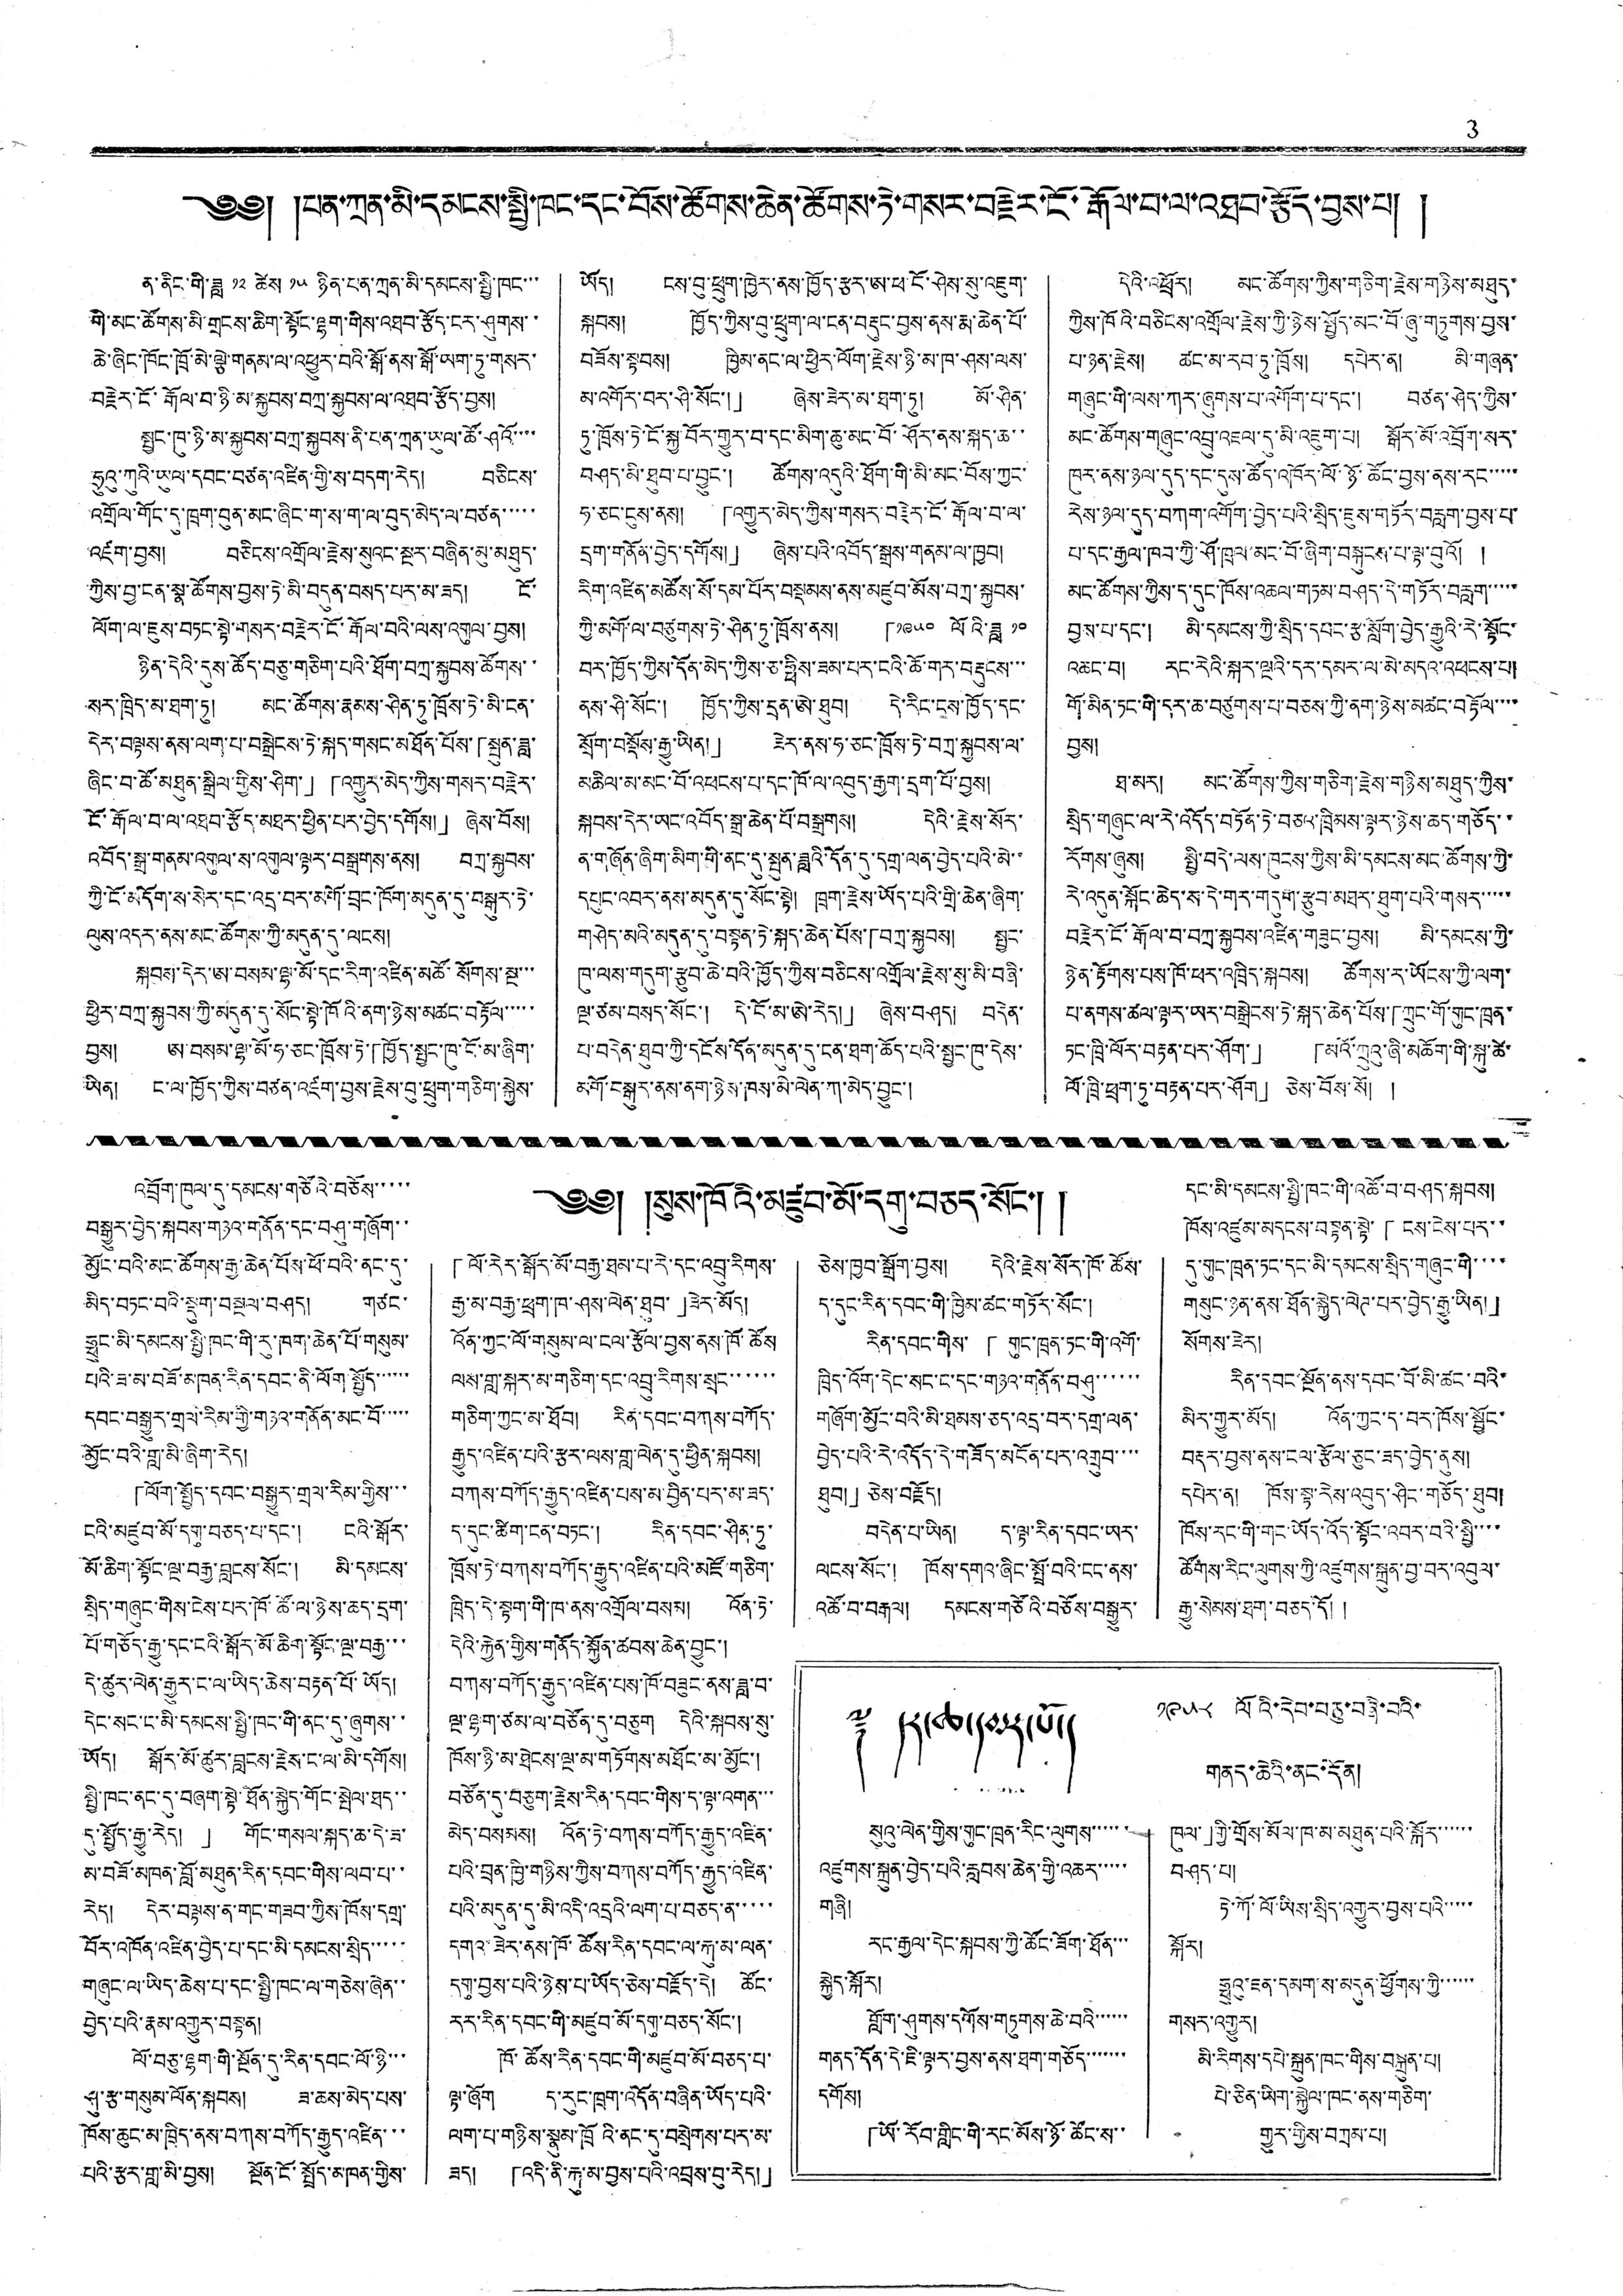3
༄༅། །པན་ཀྲན་མི་དམངས་སྤྱི་ཁང་དང་བོས་ཚོགས་ཆེན་ཚོགས་ཏེ་གསར་བརྗེར་ངོ་རྒོལ་བ་ལ་འཐབ་རྩོད་བྱས་པ། །
ན་ནིང་གི་ཟླ ༡༢ ཚེས ༡༥ ཉིན་པན་ཀྲན་མི་དམངས་སྤྱི་ཁང་་་
གི་མང་ཚོགས་མི་གྲངས་ཆིག་སྟོང་ལྷག་གིས་འཐབ་རྩོད་ངར་ཤུགས་་
ཆེ་ཞིང་ཁོང་ཁྲོ་མེ་ལྕེ་གནམ་ལ་འཕྱུར་བའི་སྒོ་ནས་སྒོ་ཡག་ཏུ་གསར་
བརྗེར་ངོ་རྒོལ་བ་ཉི་མ་སྐྱབས་བཀྲ་སྐྱབས་ལ་འཐབ་རྩོད་བྱས།
སྤྱང་ཁུ་ཉི་མ་སྐྱབས་བཀྲ་སྐྱབས་ནི་པན་ཀྲན་ཡུལ་ཚོ་ཤའོ་་་་
ཧྲུའུ་ཀུའི་ཡུལ་དབང་བཙན་འཛིན་གྱིས་ས་བདག་རེད། བཅིངས་
འགྲོལ་གོང་དུ་ཁྲག་བུན་མང་ཞིང་ག་ས་ག་ལ་བུད་མེད་ལ་བཙན་་་་་
འཛག་བྱས། བཅིངས་འགྲོལ་རྗེས་སུའང་སྔར་བཞིན་མུ་མཐུད་
ཀྱིས་བྱ་ངན་སྣ་ཚོགས་བྱས་ཏེ་མི་བདུན་བསད་པར་མ་ཟད། ངོ་
ལོག་ལ་ཇུས་བཏང་སྟེ་གསར་བརྗེར་ངོ་རྒོལ་བའི་ལས་འགུལ་བྱས།
ཉིན་དེའི་དུས་ཚོད་བཅུ་གཅིག་པའི་ཐོག་བཀྲ་སྐྱབས་ཚོགས་་
སར་ཁྲིད་མ་ཐག་ཏུ། མང་ཚོགས་རྣམས་ཤིན་ཏུ་ཁྲོས་ཏེ་མི་ངན་
དེར་བལྟས་ནས་ལག་པ་བསྒྲེངས་ཏེ་སྐད་གསང་མཐོན་པོས་「སྤུན་ཟླ་
ཞིང་བ་ཚོ་མཐུན་སྒྲིལ་གྱིས་ཤིག་」「འགྱུར་མེད་ཀྱིས་གསར་བརྗེར་
ངོ་རྒོལ་བ་ལ་འཐབ་རྩོད་མཐར་ཕྱིན་པར་བྱེད་དགོས།」ཞེས་བོས།
འབོད་སྒྲ་གནམ་འགུལ་ས་འགུལ་ལྟར་བསྒྲགས་ནས། བཀྲ་སྐྱབས་
ཀྱི་ངོ་མདོག་ས་སེར་དང་འདྲ་བར་མགོ་བྲང་ཁོག་མདུན་དུ་བསྒུར་ཏེ་
ལུས་འདར་ནས་མང་ཚོགས་ཀྱི་མདུན་དུ་ལངས།
སྐབས་དེར་ཨ་བསམ་ལྷ་མོ་དང་རིག་འཛིན་མཚོ་སོགས་སྔ་་་
ཕྱིར་བཀྲ་སྐྱབས་ཀྱི་མདུན་དུ་སོང་སྟེ་ཁོའི་ནག་ཉེས་མཚང་བརྟོལ་་་་་
བྱས། ཨ་བསམ་ལྷ་མོ་ཧ་ཅང་ཁྲོས་ཏེ་「ཁྱོད་སྦྱང་ཁུ་ངོ་མ་ཞིག་
ཡིན། ང་ལ་ཁྱོད་ཀྱིས་བཙན་འཛག་བྱས་རྗེས་བུ་ཕྲུག་གཅིག་སྐྱེས་
ཡོད། ངས་བུ་ཕྲུག་ཁྱེར་ནས་ཁྱོད་རྩར་ཨ་ཕ་ངོ་ཤེས་སུ་འཇུག་
སྐབས། ཁྱོད་ཀྱིས་བུ་ཕྲུག་ལ་ངན་བརྡུང་བྱས་ནས་རྨ་ཆེན་པོ་
བཟོས་སྟབས། ཁྱིམ་ནང་ལ་ཕྱིར་ལོག་རྗེས་ཉི་མ་ཁ་ཤས་ལས་
མ་འགོར་བར་ཤི་སོང་།」 ཞེས་ཟེར་མ་ཐག་ཏུ། མོ་ཤིན་
ཏུ་ཁྲོས་ཏེ་ངོ་སྐྱ་བོད་གྱུར་བ་དང་མིག་ཆུ་མང་བོ་ཤོར་ནས་སྐད་ཆ་་
བཤད་མི་ཐུབ་པ་བྱུང་། ཚོགས་འདུའི་ཐོག་གི་མི་མང་བོས་ཀྱང་
ཧ་ཅང་ངུས་ནས། 「འགྱུར་མེད་ཀྱིས་གསར་བརྗེར་ངོ་རྒོལ་བ་ལ་
དྲུག་གནོན་བྱེད་དགོས།」 ཞེས་པའི་འབོད་སྒྲས་གནམ་ལ་ཁྱབ།
རིག་འཛིན་མཚོས་སོ་དམ་པོར་བསྡམས་ནས་མཛུབ་མོས་བཀྲ་སྐྱབས་
ཀྱི་མགོ་ལ་བཙུགས་ཏེ་ཤིན་ཏུ་ཁྲོས་ནས། 「༡༩༥༠ ལོའི་ཟླ ༡༠
བར་ཁྱོད་ཀྱིས་དོན་མེད་ཀྱིས་ཅ་ཧྥིས་ཟམ་པར་ངའི་ཆོ་གར་བརྡུངས་་་
ནས་ཤི་སོང་། ཁྱོད་ཀྱིས་དྲན་ཨེ་ཐུབ། དེ་རིང་ངས་ཁྱོད་དང་
སྲོག་བསྡོས་རྒྱུ་ཡིན།」 ཟེར་ནས་ཧ་ཅང་ཁྲོས་ཏེ་བཀྲ་སྐྱབས་ལ་
མཆིལ་མ་མང་བོ་འཕངས་པ་དང་ཁོ་ལ་འབུད་རྒྱག་དྲག་པོ་བྱས།
སྐབས་དེར་ཡང་འབོད་སྒྲ་ཆེན་པོ་བསྒྲགས། དེའི་རྗེས་སོར་
ན་གཞོན་ཞིག་མིག་གི་ནང་དུ་སྤུན་ཟླའི་དོན་དུ་དགྲ་ལན་བྱེད་པའི་མི་་
དཔུང་འབར་ནས་མདུན་དུ་སོང་སྟེ། ཁྲག་རྗེས་ཡོད་པའི་གྲི་ཆེན་ཞིག་
གཤེད་མའི་མདུན་དུ་བསྟན་ཏེ་སྐད་ཆེན་པོས་「བཀྲ་སྐྱབས། སྤྱང་
ཁུ་ལས་གདུག་རྩུབ་ཆེ་བའི་ཁྱོད་ཀྱིས་བཅིངས་འགྲོལ་རྗེས་སུ་མི་བཞི་
ལྔ་ཙམ་བསད་སོང་། དེ་ངོ་མ་ཨེ་རེད།」 ཞེས་བཤད། བདེན་
པ་བདེན་ཐུབ་ཀྱི་དངོས་དོན་མདུན་དུ་ངན་ཐག་ཆོད་པའི་སྤྱང་ཁུ་དེས་
མགོ་བསྒུར་ནས་ནག་ཉེས་ཁས་མི་ལེན་ཀ་མེད་བྱུང་།
དེའི་འཕྲོར། མང་ཚོགས་ཀྱིས་གཅིག་རྗེས་གཉིས་མཐུད་
ཀྱིས་ཁོའི་བཅིངས་འགྲོལ་རྗེས་ཀྱི་ཉེས་སྤྱོད་མང་བོ་ཞུ་གཏུགས་བྱས་
པ་ཉན་རྗེས། ཚང་མ་རབ་ཏུ་ཁྲོས། དཔེར་ན། མི་གཞན་
གཞུང་གི་ལས་ཀར་ཞུགས་པ་འགོག་པ་དང་། བཙན་ཤེད་ཀྱིས་
མང་ཚོགས་གཞུང་འབྲུ་འཇལ་དུ་མི་འཇུག་པ། སྒོར་མོ་འབྲོག་སར་
ཁུར་ནས་ཉལ་དུད་དང་དུས་ཚོད་འཁོར་ལོ་ཉོ་ཚོང་བྱས་ནས་རང་་་་་
རེས་ཉལ་དུད་བཀག་འགོག་བྱེད་པའི་སྲིད་ཇུས་གཏོར་བརླག་བྱས་པ་
པ་དང་རྒྱལ་ཁབ་ཀྱི་ཤོ་ཁྲལ་མང་བོ་ཞིག་བསྐུངས་པ་ལྟ་བུའོ། །
མང་ཚོགས་ཀྱིས་ད་དུང་ཁོས་འཆལ་གཏམ་བཤད་དེ་གཏོར་བརླག་་་་་
བྱས་པ་དང་། མི་དམངས་ཀྱི་སྲིད་དབང་རྩ་སློག་བྱེད་རྒྱུའི་རེ་སྟོང་
འཆང་བ། རང་རེའི་སྐར་ལྔའི་དར་དམར་ལ་མེ་མདའ་འཕངས་པ།
གོ་མིན་ཏང་གི་དར་ཆ་བཙུགས་པ་བཅས་ཀྱི་ནག་ཉེས་མཚང་བརྟོལ་་་་
བྱས།
ཐ་མར། མང་ཚོགས་ཀྱིས་གཅིག་རྗེས་གཉིས་མཐུད་ཀྱིས་
སྲིད་གཞུང་ལ་རེ་འདོད་བཏོན་ཏེ་བཅའ་ཁྲིམས་ལྟར་ཉེས་ཆད་གཅོད་་
རོགས་ཞུས། སྤྱི་བདེ་ལས་ཁུངས་ཀྱིས་མི་དམངས་མང་ཚོགས་ཀྱི་
རེ་འདུན་སྐོང་ཆེད་ས་དེ་གར་གདུག་རྩུབ་མཐར་ཐུག་པའི་གསར་་་་་
བརྗེར་ངོ་རྒོལ་བ་བཀྲ་སྐྱབས་འཛིན་གཟུང་བས། མི་དམངས་ཀྱི་
ཉེན་རྟོགས་པས་ཁོ་ཕར་འཁྲིད་སྐབས། ཚོགས་ར་ཡོངས་ཀྱི་ལག་
པ་ནགས་ཚལ་ལྟར་ཡར་བསྒྲེངས་ཏེ་སྐད་ཆེན་པོས་「ཀྲུང་གོ་གུང་ཁྲན་
ཏང་ཁྲི་ལོར་བརྟན་པར་ཤོག་」 「མའོ་ཀྲུའུ་ཞི་མཆོག་གི་སྐུ་ཚེ་
ལོ་ཁྲི་ཕྲག་ཏུ་བརྟན་པར་ཤོག」 ཅེས་བོས་སོ། །
༄༅། །སུས་ཁོའི་མཛུབ་མོ་དགུ་བཅད་སོང་། །
འབྲོག་ཁུལ་དུ་དམངས་གཙོའི་བཅོས་་་་་
བསྒྱུར་བྱེད་སྐབས་གཉའ་གནོན་དང་བཤུ་གཞོག་་
མྱོང་བའི་མང་ཚོགས་རྒྱ་ཆེན་པོས་ཕོ་བའི་ནང་དུ་
མིད་བཏང་བའི་སྡུག་བསྔལ་བཤད། གཙང་
ཧྥུང་མི་དམངས་སྤྱི་ཁང་གི་རུ་ཁག་ཆེན་པོ་གསུམ་
པའི་ཟ་མ་བཟོ་མཁན་རིན་དབང་ནི་ལོག་སྤྱོད་་་་་་
དབང་བསྒྱུར་གྲལ་རིམ་གྱི་གཉའ་གནོན་མང་བོ་་་་་
མྱོང་བའི་གླ་མི་ཞིག་རེད།
「ལོག་སྤྱོད་དབང་བསྒྱུར་གྲལ་རིམ་གྱིས་་་
ངའི་མཛུབ་མོ་དགུ་བཅད་པ་དང་། ངའི་སྒོར་
མོ་ཆིག་སྟོང་ལྔ་བརྒྱ་བླངས་སོང་། མི་དམངས་
སྲིད་གཞུང་གིས་ངེས་པར་ཁོ་ཚོ་ལ་ཉེས་ཆད་དྲག་
པོ་གཅོད་རྒྱུ་དང་ངའི་སྒོར་མོ་ཆིག་སྟོང་ལྔ་བརྒྱ་་་
དེ་ཚུར་ལེན་རྒྱུར་ང་ལ་ཡིད་ཆེས་བརྟན་པོ་ཡོད།
དེང་སང་ང་མི་དམངས་སྤྱི་ཁང་གི་ནང་དུ་ཞུགས་་
ཡོད། སྒོར་མོ་ཚུར་བླངས་རྗེས་ང་ལ་མི་དགོས།
སྤྱི་ཁང་ནང་དུ་བཞག་སྟེ་ཐོན་སྐྱེད་གོང་སྤེལ་ཐད་་
དུ་སྤྱོད་རྒྱུ་རེད། 」 གོང་གསལ་སྐད་ཆ་དེ་ཟ་
མ་བཟོ་མཁན་བློ་མཐུན་རིན་དབང་གིས་ལབ་པ་་
རེད། དེར་བལྟས་ན་གང་གཟབ་ཀྱིས་ཁོས་དགྲ་
བོར་འཁོན་འཛིན་བྱེད་པ་དང་མི་དམངས་སྲིད་་་་་
གཞུང་ལ་ཡིད་ཆེས་པ་དང་སྤྱི་ཁང་ལ་གཅེས་ཞེན་་
བྱེད་པའི་རྣམ་འགྱུར་བསྟན།
ལོ་བཅུ་ལྷག་གི་སྔོན་དུ་རིན་དབང་ལོ་ཉི་་་
ཤུ་རྩ་གསུམ་ལོན་སྐབས། ཟ་ཆས་མེད་པས་
ཁོས་ཆུང་མ་ཁྲིད་ནས་བཀས་བཀོད་རྒྱུད་འཛིན་་་
པའི་རྩར་གླ་མི་བྱས། སྔོན་ངོ་སྤྲོད་མཁན་གྱིས་
「ལོ་རེར་སྒོར་མོ་བརྒྱ་ཐམ་པ་རེ་དང་འབྲུ་རིགས་
རྒྱ་མ་བརྒྱ་ཕྲག་ཁ་ཤས་ལེན་ཐུབ་」ཟེར་མོད།
འོན་ཀྱང་ལོ་གསུམ་ལ་ངལ་རྩོལ་བྱས་ནས་ཁོ་ཚོས
ལས་གླ་སྐར་མ་གཅིག་དང་འབྲུ་རིགས་སྲང་་་་་་
གཅིག་ཀྱང་མ་ཐོབ། རིན་དབང་བཀས་བཀོད་
རྒྱུད་འཛིན་པའི་རྩར་ལས་གླ་ལེན་དུ་ཕྱིན་སྐབས།
བཀས་བཀོད་རྒྱུད་འཛིན་པས་མ་བྱིན་པར་མ་ཟད་
ད་དུང་ཚིག་ངན་བཏང་། རིན་དབང་ཤིན་ཏུ་
ཁྲོས་ཏེ་བཀས་བཀོད་རྒྱུད་འཛིན་པའི་མཛོ་གཅིག་
ཁྲིད་དེ་སྟག་གི་ཁ་ནས་འགྲོལ་བསམ། འོན་ཏེ་
དེའི་རྐྱེན་གྱིས་གནོད་སྐྱོན་ཚབས་ཆེན་བྱུང་།
བཀས་བཀོད་རྒྱུད་འཛིན་པས་ཁོ་བཟུང་ནས་ཟླ་བ་
ལྔ་ལྷག་ཙམ་ལ་བཙོན་དུ་བཅུག དེའི་སྐབས་སུ་
ཁོས་ཉི་མ་ཐེངས་ལྔ་མ་གཏོགས་མཐོང་མ་མྱོང་།
བཙོན་དུ་བཅུག་རྗེས་རིན་དབང་གིས་ད་ལྟ་འགན་་་
མེད་བསམས། འོན་ཏེ་བཀས་བཀོད་རྒྱུད་འཛིན་
པའི་བྲན་ཁྱི་གཉིས་ཀྱིས་བཀས་བཀོད་རྒྱུད་འཛིན་
པའི་མདུན་དུ་མི་འདི་འདྲའི་ལག་པ་བཅད་ན་་་་་
དགའ་ཟེར་ནས་ཁོ་ཚོས་རིན་དབང་ལ་རྐུ་མ་ལན་
དགུ་བྱས་པའི་ཉེས་པ་ཡོད་ཅེས་བརྗོད་དེ། ཚོང་
རར་རིན་དབང་གི་མཛུབ་མོ་དགུ་བཅད་སོང་།
ཁོ་ཚོས་རིན་དབང་གི་མཛུབ་མོ་བཅད་པ་
ལྷ་ཞོག ད་རུང་ཁྲག་འདོན་བཞིན་ཡོད་པའི་
ལག་པ་གཉིས་སྣུམ་ཁྲོའི་ནང་དུ་བསྲེགས་པར་མ་
ཟད། 「འདི་ནི་རྐུ་མ་བྱས་པའི་འབྲས་བུ་རེད།」
ཅེས་ཁྱབ་སྒྲོག་བྱས། དེའི་རྗེས་སོར་ཁོ་ཚོས་
ད་དུང་རིན་དབང་གི་ཁྱིམ་ཚང་གཏོར་སོང་།
རིན་དབང་གིས་ 「གུང་ཁྲན་ཏང་གི་འགོ་
ཁྲིད་འོག་དེང་སང་ང་དང་གཉའ་གནོན་བཤུ་་་་་་
གཞོག་མྱོང་བའི་མི་ཐམས་ཅད་འདྲ་བར་དགྲ་ལན་
བྱེད་པའི་རེ་འདོད་དེ་གཟོད་མངོན་པར་འགྲུབ་་་་
ཐུབ།」ཅེས་བརྗོད།
བདེན་པ་ཡིན། ད་ལྟ་རིན་དབང་ཡར་
ལངས་སོང་། ཁོས་དགའ་ཞིང་སྤྲོ་བའི་ངང་ནས་
འཚོ་བ་བརྒལ། དམངས་གཙོའི་བཅོས་བསྒྱུར་
དང་མི་དམངས་སྤྱི་ཁང་གི་འཚོ་བ་བཤད་སྐབས།
ཁོས་འཛུམ་མདངས་བསྟན་སྟེ་「ངས་ངེས་པར་་
དུ་གུང་ཁྲན་ཏང་དང་མི་དམངས་སྲིད་གཞུང་གི་་་་
གསུང་ཉན་ནས་ཐོན་སྐྱེད་ལེཊ་པར་བྱེད་རྒྱུ་ཡིན།」
སོགས་ཟེར།
རིན་དབང་སྔོན་ནས་དབང་བོ་མི་ཚང་བའི་
མིར་གྱུར་མོད། འོན་ཀྱང་ད་བར་ཁོས་སྦྱོང་
བརྡར་བྱས་ནས་ངལ་རྩོལ་ཅུང་ཟད་བྱེད་ནུས།
དཔེར་ན། ཁོས་སྟེ་རེས་འབུད་ཤིང་གཅོད་ཐུབ།
ཁོས་རང་གི་གང་ཡོད་འོད་སྟོང་འབར་བའི་སྤྱི་་་་
ཚོགས་རིང་ལུགས་ཀྱི་འཛུགས་སྐྲུན་བྱ་བར་འབུལ་
རྒྱུ་སེམས་ཐག་བཅད་དོ། །
༈ དར་ཆ་དམར་པོ།
སུའུ་ལེན་གྱིས་གུང་ཁྲན་རིང་ལུགས་་་་་་
འཛུགས་སྐྲུན་བྱེད་པའི་རླབས་ཆེན་གྱི་འཆར་་་་་
གཞི།
རང་རྒྱལ་དེང་སྐབས་ཀྱི་ཚོང་ཟོག་ཐོན་་་
སྐྱེད་སྐོར།
གློག་ཤུགས་དགོས་གཏུགས་ཆེ་བའི་་་་་་
གནད་དོན་དེ་ཇི་ལྟར་བྱས་ནས་ཐག་གཅོད་་་་་་་
དགོས།
「ཡོ་རོབ་གླིང་གི་རང་མོས་ཉོ་ཚོང་ས་་
༡༩༥༨ ལོའི་དེབ་བཅུ་བཞི་བའི་
གནད་ཆེའི་ནང་དོན།
ཁུལ་」གྱི་གྲོས་མོལ་ཁ་མ་མཐུན་པའི་སྐོར་་་་་་
བཤད་པ།
ཏེ་ཀོ་ལོ་ཡིས་སྲིད་འགྱུར་བྱས་པའི་་་་་
སྐོར།
ཧྥུའུ་ཇན་དམག་ས་མདུན་ཕྱོགས་ཀྱི་་་་་་
གསར་འགྱུར།
མི་རིགས་དཔེ་སྐྲུན་ཁང་གིས་བསྐྲུན་པ།
པེ་ཅིན་ཡིག་སྐྱེལ་ཁང་ནས་གཅིག་
གྱུར་གྱིས་བཀྲམ་པ།
